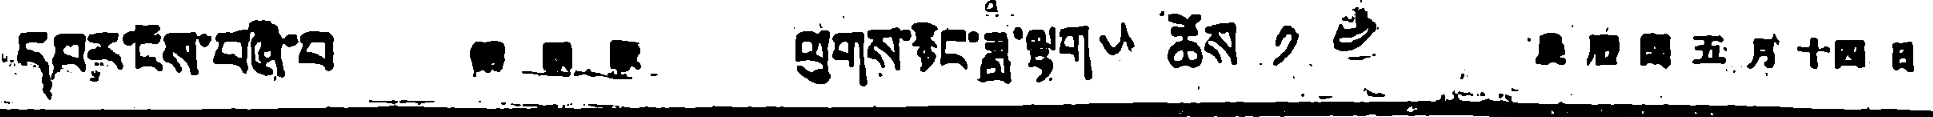དཔར་ངོས་བཞི་པ 第 四 版 ལུགས་རྙིང་ཟླ་ལྷག༥ ཚེས ༡༤ 農 曆 閏 五 月 十四 日
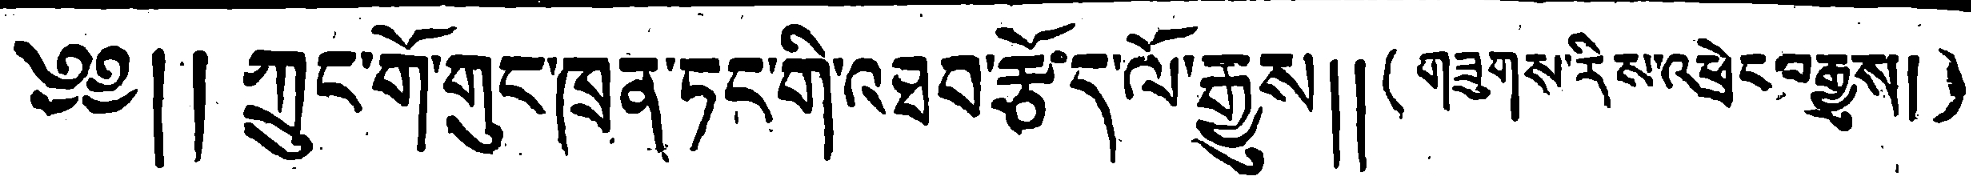༄༅།། ཀུང་གོ་གུང་ཁྲན་ཏང་གི་འཐབ་རྩོད་ལོ་རྒྱུས།། ( གཟུགས་རིས་འཕྲེང བརྒྱུས། )
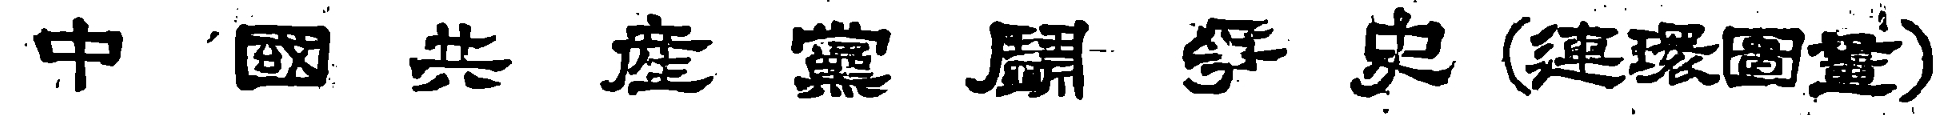中 國 共 產 黨 鬥 爭 史 （連環圖畫）
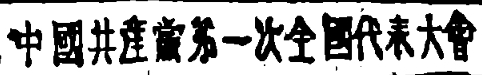中國共產黨第一次全國代表大會
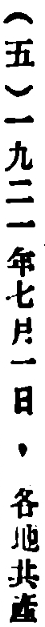（五）以九二一年七月一日，各地共產
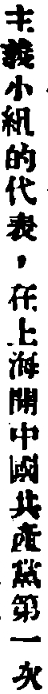主義小組的代表，在上海開中國共產黨第一次
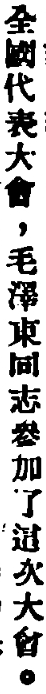全國代表大會，毛澤東同志參加了這次大會。
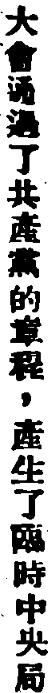大會通過了共產黨的章程，產生了臨時中央局
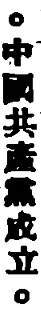。中國共產黨成立。
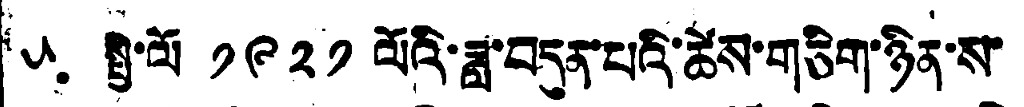༥ སྤྱི་ལོ ༡༩༢༡ ལོའི་ཟླ་བདུན་པའི་ཚེས་གཅིག་ཉིན་ས་
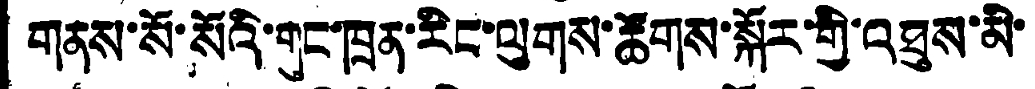གནས་སོ་སོའི་གུང་ཁྲན་རིང་ལུགས་ཚོགས་སྐོར་གྱི་འཐུས་མི་
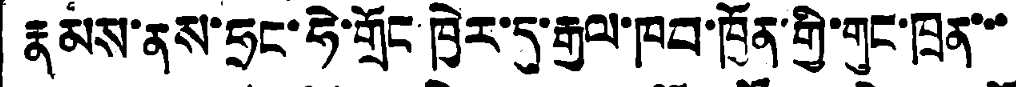རྣམས་ནས་ཧྲང་ཧེ་གྲོང་ཁྱེར་དུ་རྒྱལ་ཁབ་ཁྱོན་གྱི་གུང་ཁྲན་་་
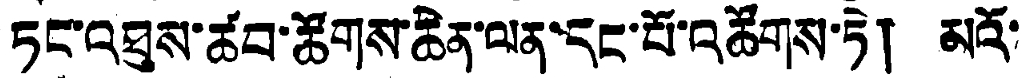ཏང་འཐུས་ཚབ་ཚོགས་ཆེན་ལན་དང་པོ་འཚོགས་ཏེ། མའོ་
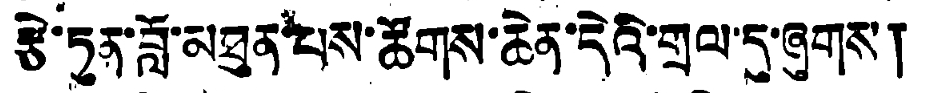རྩེ་ཏུན་བློ་མཐུན་པས་ཚོགས་ཆེན་དེའི་གྲལ་དུ་ཞུགས།
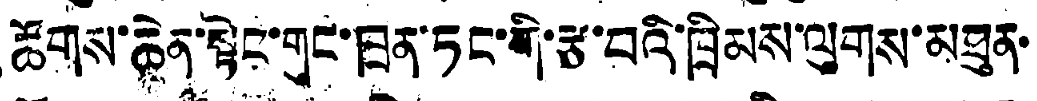ཚོགས་ཆེན་སྟེང་གུང་ཁྲན་ཏང་གི་རྩ་བའི་ཁྲིམས་ལུགས་མཐུན་
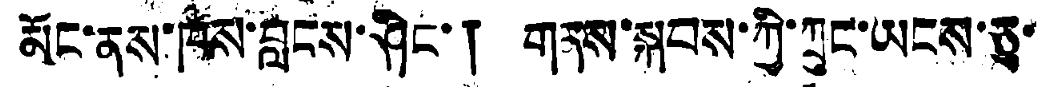མོང་ནས་ཁོས་བླངས་ཤིང་། གནས་སྐབས་ཀྱི་ཀྲུང་ཡངས་ཅུ་
